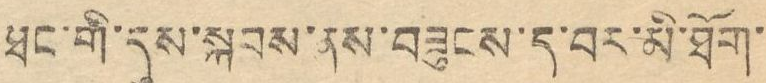ཐང་གི་དུས་སྐབས་ནས་བཟུངས་ད་བར་མི་ཐོག་
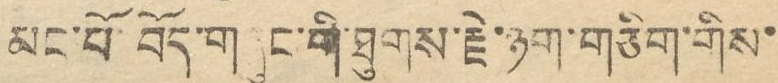མང་པོ་བོད་གཞུང་གི་ཐུགས་རྗེ་ཉག་གཅིག་གིས་
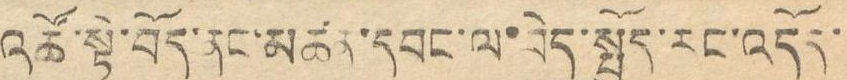འཚོ་སྟེ་བོད་ནང་མཚན་དབང་ལ་བེད་སྤྱོད་རང་འདོད་
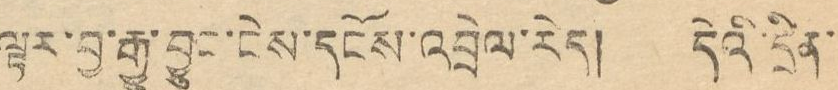ལྟར་བྱ་རྒྱུ་བྱུང་ངེས་དངོས་འབྲེལ་རེད། དེའི་དྲིན་
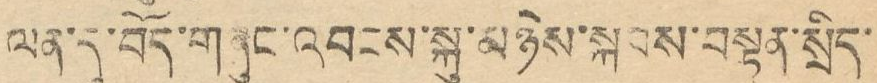ལན་དུ་བོད་གཞུང་འབངས་སྐུ་མཉེས་སྐབས་བསྟན་སྲིད་
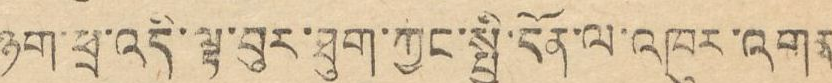ཉག་ཕྲ་འདི་ལྟ་བུར་ཐུག་ཀྱང་སྤྱི་དོན་ལ་འཁུར་འགན
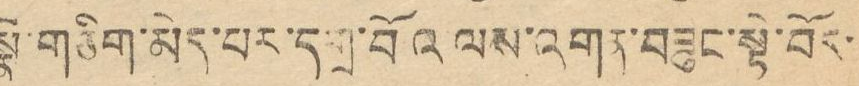སྣེ་གཅིག་མེད་པར་དགྲ་བོའ ལས་འགན་བཟུང་སྟེ་བོད་
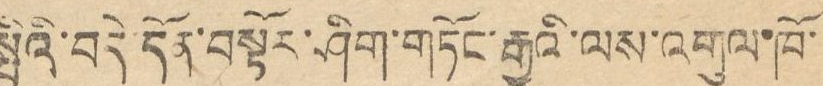སྤྱིའི་བདེ དོན་བསྟོར་ཤིག་གཏོང་རྒྱུའི་ལས་འགུལ་ཁོ་
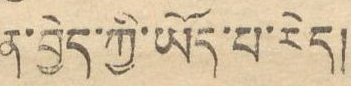ན་བྱེད་ཀྱི་ཡོད་པ་རེད།
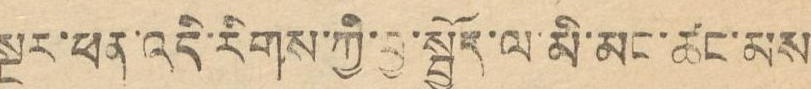སྔར་ཕན་འདི་རིགས་ཀྱི་བྱ་སྤྱོད་ལ་མི་མང་ཚང་མས
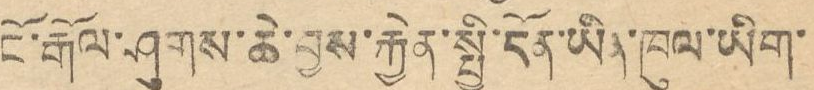ངོ་རྒོལ་ཤུགས་ཆེ་བྱས་རྐྱེན་སྤྱི་དོན་ཡིན་ཁུལ་ཡིག་
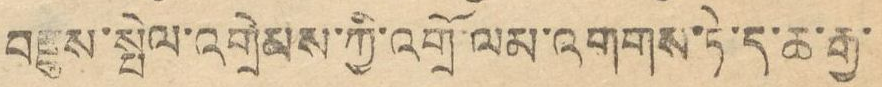བརྗུས་སྤེལ་འགྲེམས་ཀྱི་འགྲོ་ལམ་འགགས་ཏེ་ད་ཆ་རྒྱ་
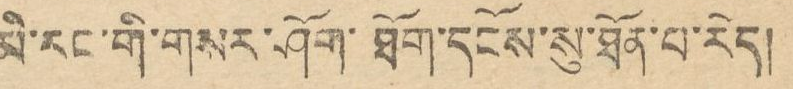མི་རང་གི་གསར་ཤོག་ཐོག་དངོས་སུ་ཐོན་པ་རེད།
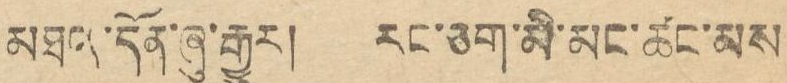མཐའ་དོན་ཞུ་རྒྱུར། རང་ཅག་མི་མང་ཚང་མས
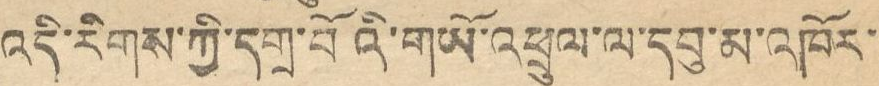འདི་རིགས་ཀྱི་དགྲ་བོའི་གཡོ་འཕྲུལ་ལ་དབུ་མ་འཁོར་
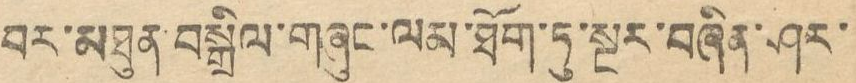བར་མཐུན་བསྒྲིལ་གཞུང་ལམ་ཐོག་ཏུ་སྔར་བཞིན་ཤར་
